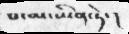པ་མ་ཡིན་ཏེ་།
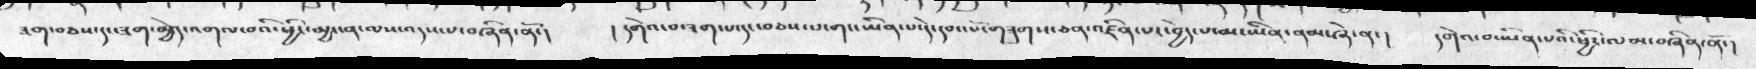ཟག་བཅས་དང་ཟག་མྱེད་འགལ་བའི་ཕྱིར་མྱ་ངན་ལས་འདས་པ་བཞིན་ནོ་།  །དགེའ་བ་ཟག་པ་དང་བཅས་པ་གང་ཡིན་པ་དེ་དབང་པོ་གཟུགས་ཅན་འཛིན་པར་བྱེད་པ་མ་ཡིན་ནམ་ཞེ་ན་།   དགེའ་བ་ཡིན་པའི་ཕྱིར་ལམ་བཞིན་ནོ་།
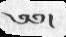༄༅།
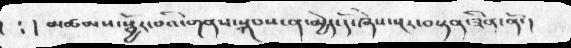།  ༴ །མཚམས་སྦྱོར་བའི་གནས་སྐབས་ན་མྱེད་དོ་ཞེས་སྔར་བསྟན་ཟིན་ནོ་།
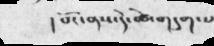། པོར་ནས་དེ་ཚེ་གདུག་པ
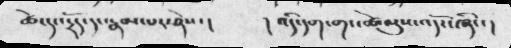ཚེ་དང་དྲོད་དང་རྣམ་པར་ཤེས་།      ། འདི་དག་གང་ཚེ་ལུས་འདོད་ཞིང་།
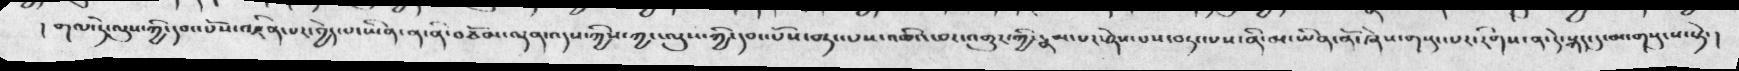། གལ་དེ་ལུས་ཀྱི་དབང་པོས་འཛིན་པར་བྱེད་པ་ཡིན་ན་ནི་བཅོམ་ལྡན་འདས་ཀྱིས་ཀྱང་ལུས་ཀྱི་དབང་པོས་བཏང་པས་འཆིའ་བར་འགྱུར་ཀྱི་རྣམ་པར་ཤེས་པས་བཏང་པས་ནི་མ་ཡིན་ནོ་ཞེས་གསུང་པར་རིགས་ན་དེ་སྐད་དུ་མ་གསུངས་སྟེ་།
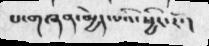པ་གཞན་མྱེད་པའི་ཕྱིར་རོ་།
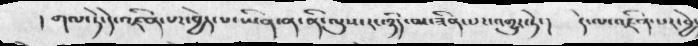།   གལ་ཏེ་དེ་འཛིན་པར་བྱེད་པ་ཡིན་ན་ནི་ལུས་རང་ཉིད་མ་ཟིན་པར་འགྱུར་ཏེ་ །      དེ་ལ་འཛིན་པར་བྱེད་
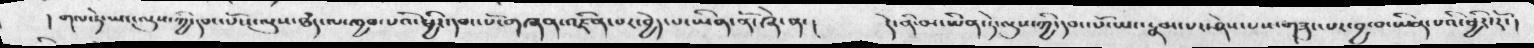།གལ་ཏེ་ཡང་ལུས་ཀྱི་དབང་པོས་ལུས་ཐཾད་ལ་ཁྱབ་པའི་ཕྱིར་དབང་པོ་གཞན་འཛིན་པར་བྱེད་པ་ཡིན་ནོ་ཞེ་ན་།   དེ་ནི་མ་ཡིན་ཏེ་ལུ་ཀྱི་དབང་པོ་ཡང་རྣམ་པར་ཤེས་པས་གཟུང་པར་བྱ་བ་ཡིན་པའི་ཕྱིར་རོ་།
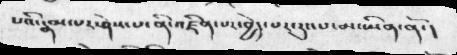པའི་རྣམ་པར་ཤེས་པ་ནི་འཛིན་པར་བྱེད་པར་རུང་པ་མ་ཡིན་ནོ་།
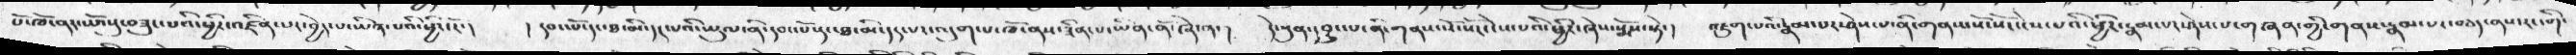པོ་ཁོ་ན་ཡོངསུ་བཟུང་པའི་ཕྱིར་འཛིན་པར་བྱེད་པ་ཡིན་པའི་ཕྱིར་རོ་།  །དབང་པོ་དང་ཐ་མི་དད་པའི་ཡུལ་ནི་དབང་པོ་དང་ཐ་མི་དད་པར་འདུག་པ་ཁོ་ནས་ཟིན་པ་ཡིན་ནོ་ཞེ་ན་།  དེ་སུན་དབྱུང་པ་ནི་གནས་སོ་སོར་ངེས་པའི་ཕྱིར་ཞེས་སྨོས་སྟེ་།  འཇུག་པའི་རྣམ་པར་ཤེས་པ་ནི་གནས་སོ་སོར་ངེས་པའི་ཕྱིར་རྣམ་པར་ཤེས་པ་གཞན་གྱི་གནས་རྣམ་པར་བཅད་ནས་རང་གི་
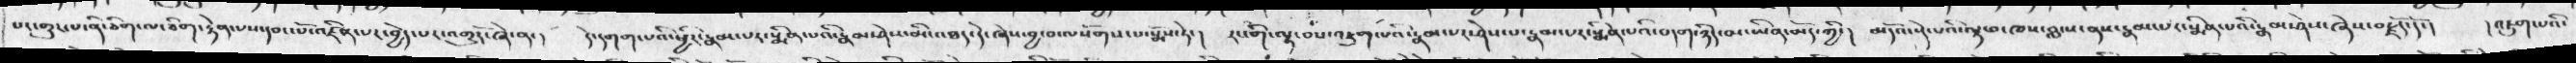པར་གྱུར་པ་ནི་ཅིག་ལ་ཅིག་རྟེན་པས་དབང་པོ་འཛིན་པར་བྱེད་པར་འགྱུརོ་ཞེ་ན་།  དེ་དགག་པའི་ཕྱིར་རྣམ་པར་སྨིན་པའི་རྣམ་ཤེས་མི་འཐད་དེ་ཞེས་བྱ་བ་ལསོགས་པ་སྨོས་ཏེ་།  རང་གི་ལྟ་བས་འཇུག་པའི་རྣམ་པར་ཤེས་པ་རྣམ་པར་སྨིན་པའི་བདག་ཉིད་མ་ཡིན་མོད་ཀྱི་།  མདོའ་སྡེ་པའི་ལྟ་བ་ཁས་བླངས་ནས་རྣམ་པར་སྨིན་པའི་རྣམ་ཤེས་ཞེས་བརྗོད་དོ་།   །འཇུག་པའི་
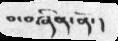བ་བཞིན་ནོ་།
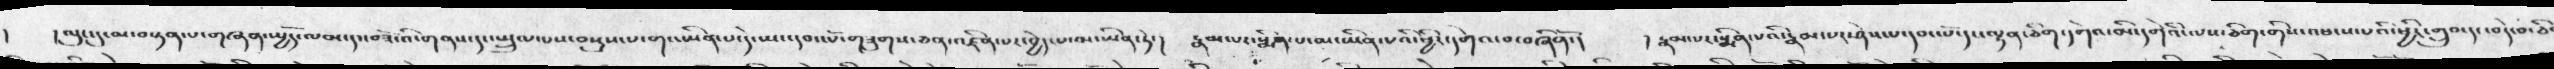། ལུང་དུ་མ་བསྟན་པ་གཞན་ཡྱོད་ལམ་དང་བཟོ་འི་གནས་དང་ཡྲུལ་པས་བསྡུས་པ་གང་ཡིན་པ་དེ་ཡང་དབང་པོ་གཟུགས་ཅན་འཛིན་པར་བྱེད་པ་མ་ཡིན་ཏེ་།     རྣམ་པར་སྨིན་པ་མ་ཡིན་པའི་ཕྱིར་དགེའ་བ་བཞིནོ་།   ། རྣམ་པར་སྨིན་པའི་རྣམ་པར་ཤེས་པ་དབང་པོ་དང་ལྷན་ཅིག་དགེའ་མི་དགེའི་ལས་ཅིག་གིས་འཕངས་པའི་ཕྱིར་གྲུབ་དང་བདེ་བ་ཅི་
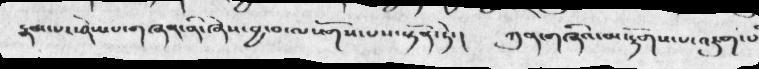རྣམ་པར་ཤེས་པ་གཞན་ནི་ཞེས་བྱ་བ་ལསོགས་པས་སྟོན་ཏེ་།   ཀུན་གཞིའ་མ་རྟོགས་པ་འཇུག་པ
